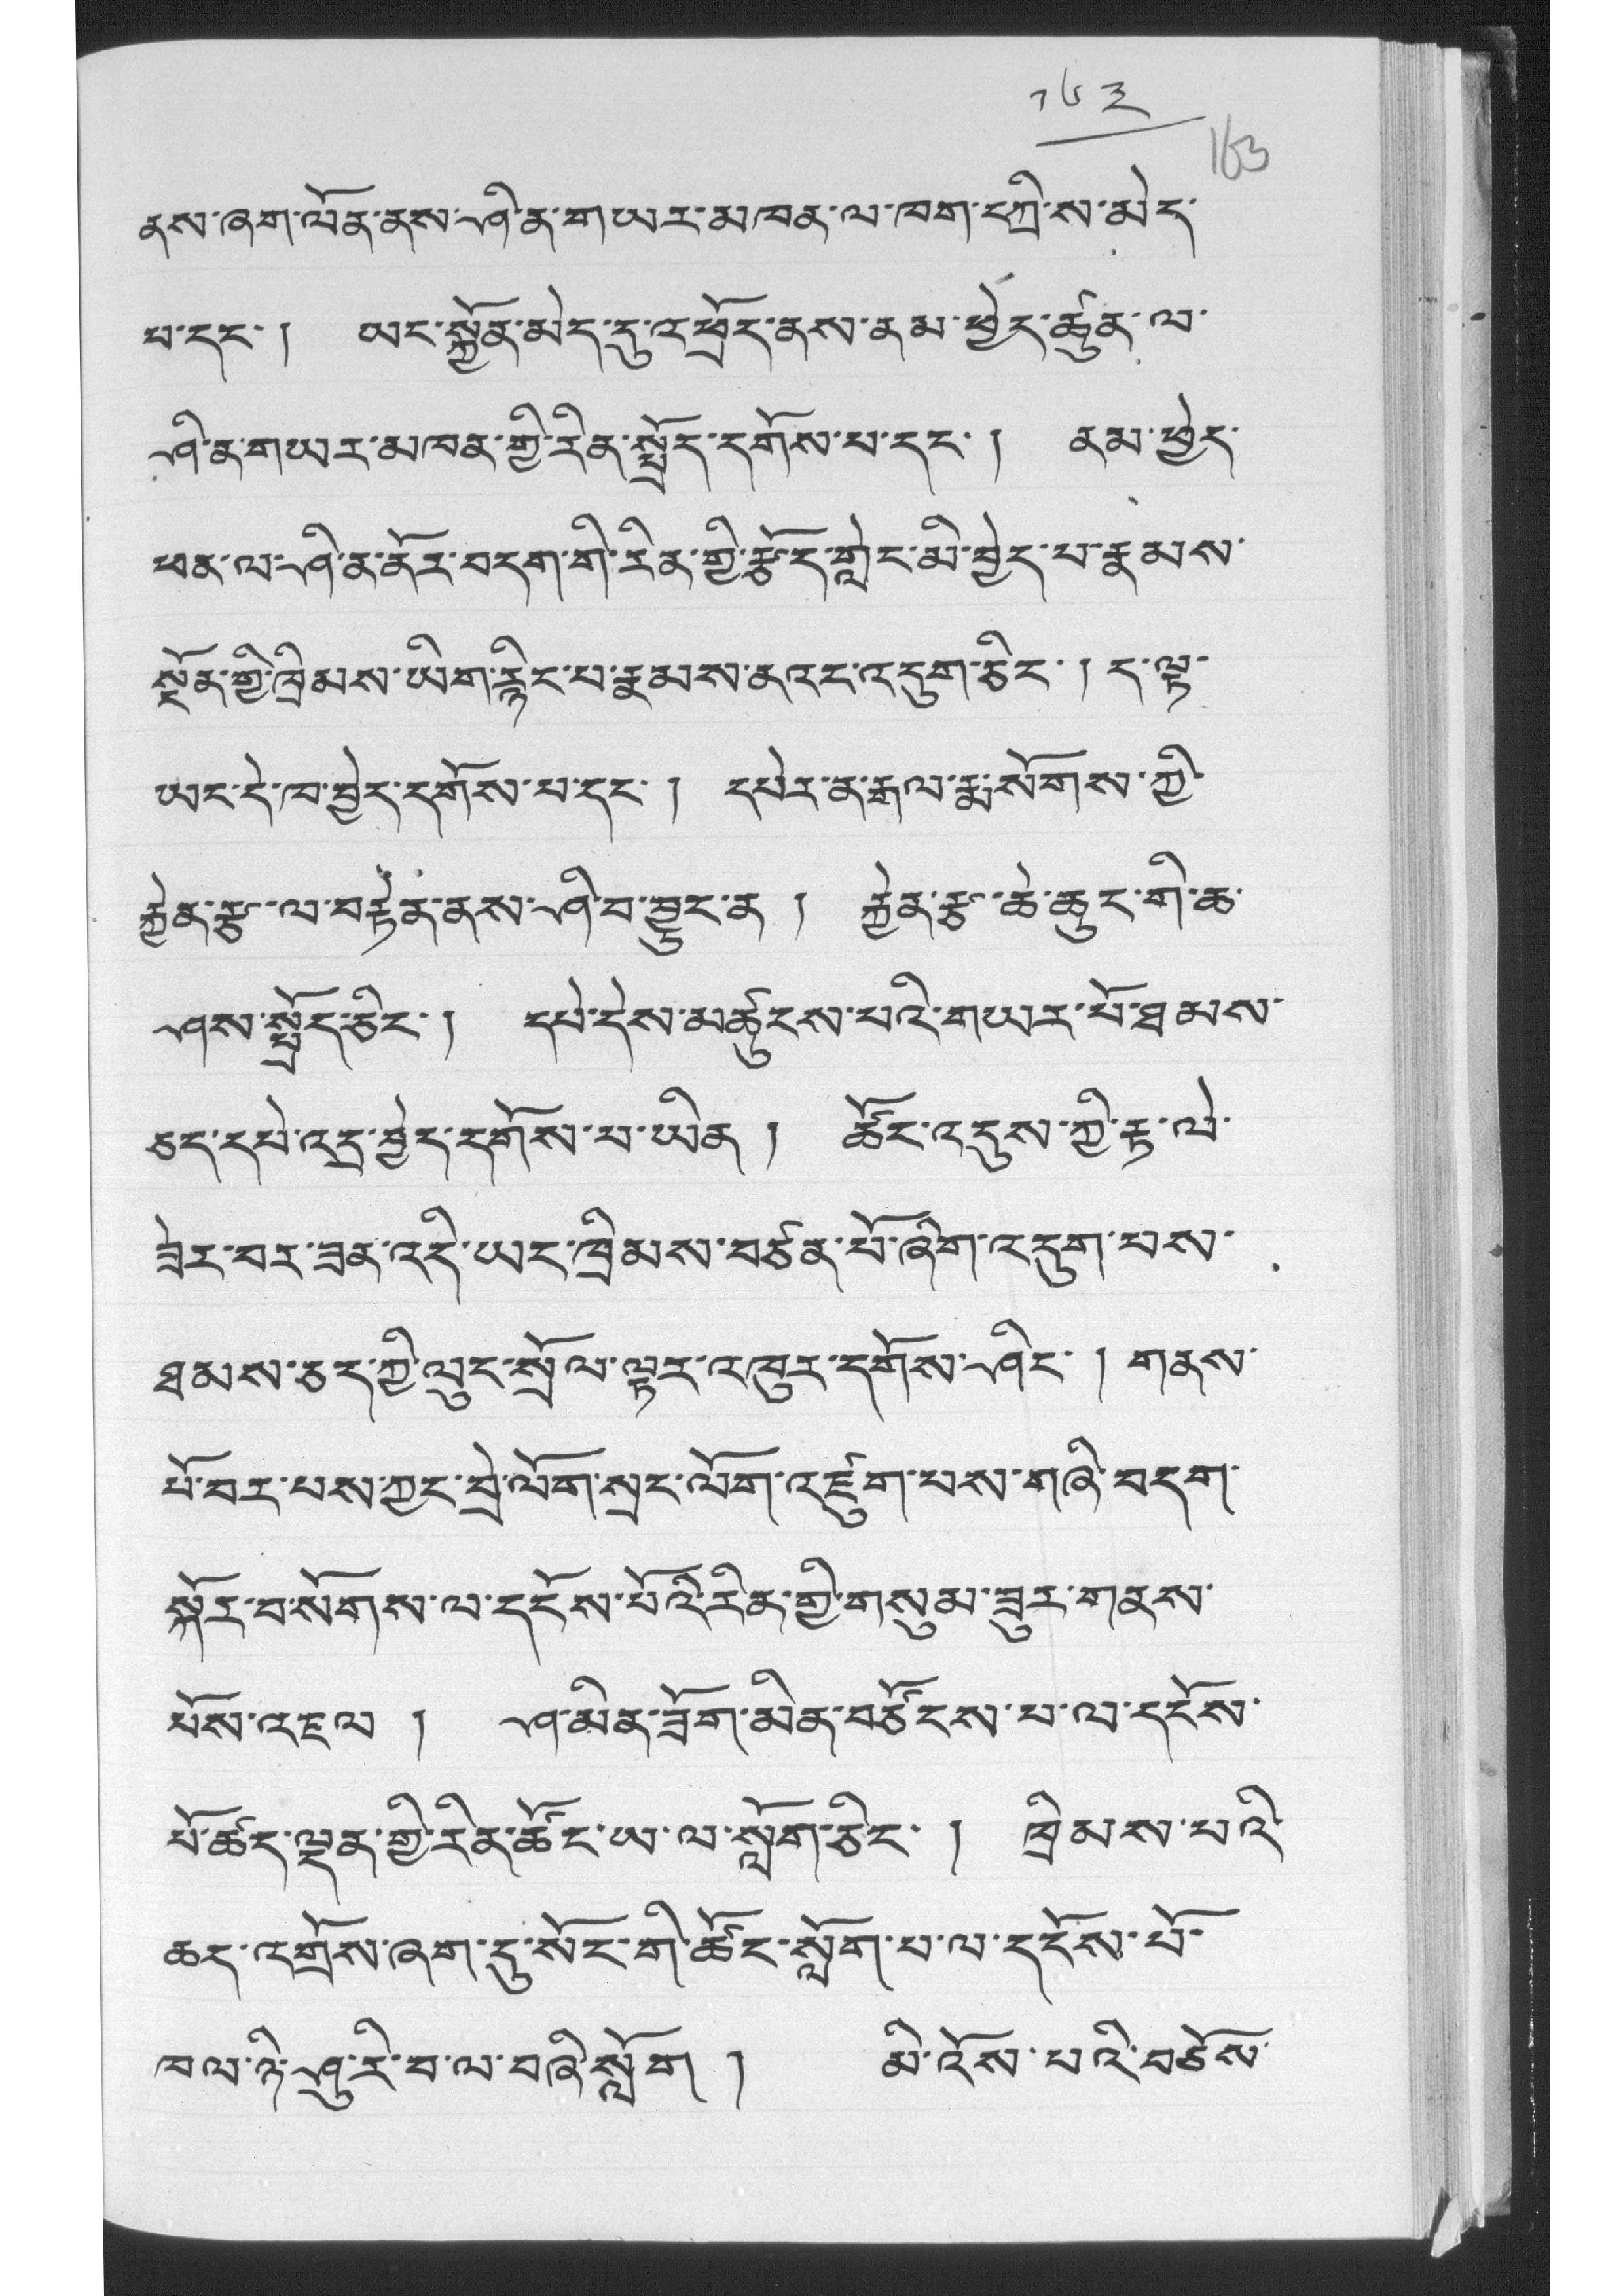༡༦༣
ནས་ཞག་ལོན་ནས་ཤི་ན་གཡར་མཁན་ལ་ཁག་དཀྲི་ས་མེད་
པ་དང་། ཡང་སྐྱོན་མེད་དུ་འཕྲོད་ནས་ནམ་ཕྱེད་ཚུན་ལ་
ཤི་ན་གཡར་མཁན་གྱི་རིན་སྤྲོད་དགོས་པ་དང་། ནམ་ཕྱེད་
ཕན་ལ་ཤི་ན་ནོར་བདག་གི་རིན་གྱི་རྩོད་གླེང་མི་བྱེད་པ་རྣམས་
སྔོན་གྱི་ཁྲིམས་ཡིག་རྙིང་པ་རྣམས་ནའང་འདུག་ཅིང་ ། ད་ལྟ་
ཡང་དེ་ཁ་བྱེད་དགོས་པ་དང་ ། དཔེར་ན་རྒལ་རྨ་སོགས་ཀྱི་
རྐྱེན་རྩ་ལ་བརྟེན་ནས་ཤི་བ་བྱུང་ན ། རྐྱེན་རྩ་ཆེ་ཆུང་གི་ཆ་
ཤས་སྤྲོད་ཅིང་། དཔེ་དེས་མཚུངས་པའི་གཡར་པོ་ཐམས་
ཅད་དཔེ་འདྲ་བྱེད་དགོས་པ་ཡིན ། ཚོང་འདུས་ཀྱི་རྟ་ལེ་
ཟེར་བར་ཟན་འདི་ཡང་ཁྲིམས་བཙན་པོ་ཞིག་འདུག་པས་
ཐམས་ཅད་ཀྱི་ལུང་སྲོལ་ལྟར་འཁུར་དགོས་ཤིང་ ། གནས་
པོ་བར་པས་ཀྱང་བྲེ་ལོག་སྲང་ལོག་འཛུག་པས་གཞི་བདག་
སྐོར་བ་སོགས་ལ་དངོས་པོའི་རིན་གྱི་གསུམ་ཟུར་གནས་
པོས་འཇལ ། ཤ་མིན་ཟོག་མིན་བཙོངས་པ་ལ་དངོས་
པོ་ཚད་ལྡན་གྱི་རིན་ཚོང་ཡ་ལ་སློག་ཅིང་ ། ཁྲིམས་པའི་
ཆད་འགྲོས་ཞག་དུ་སོང་གི་ཚོང་སློག་པ་ལ་དངོས་པོ་
ཁལ་ཉི་ཤུ་རི་བ་ལ་བཞི་སློག ། མི་འོས་པའི་བཅོས་
